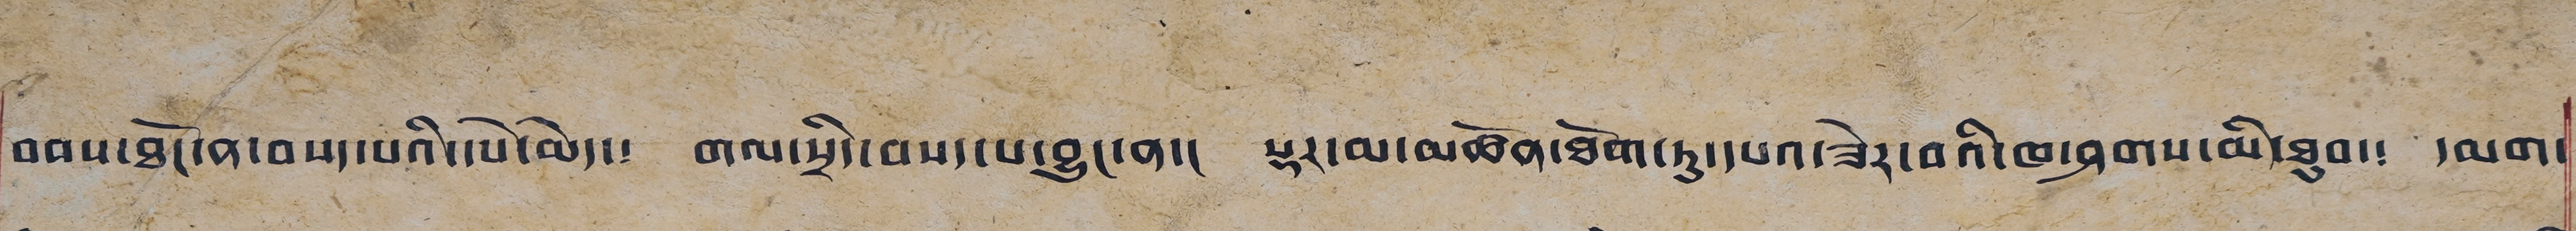བབས་ཐོང་ན་བསད་པའི་དཔེ་མེད་༴ གལ་སྲིད་བསད་པ་བྱུང་ན་༴ སྡར་མ་མཚོན་ཐོག་ཏུ་དཔའ་ཟེར་བའི་ཁ་ཤགས་མི་ཐུབ་༴ དམག་
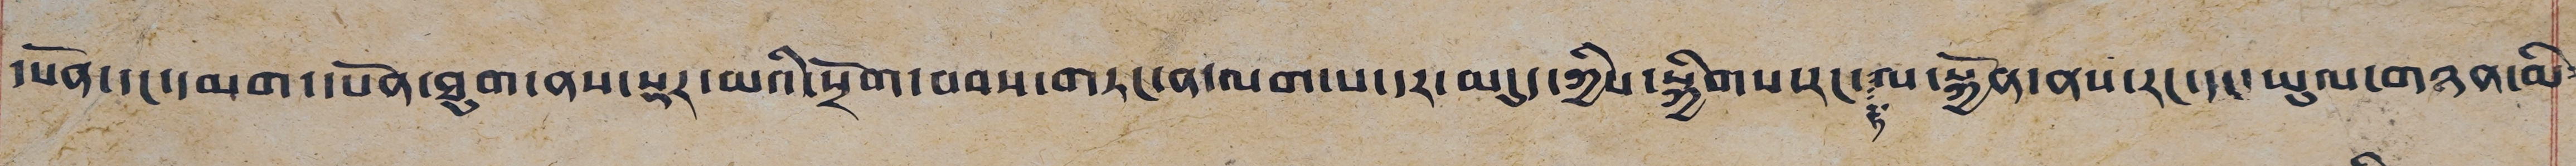དཔོན་དང་དམག་དཔོན་ཐུག་ནས་སྡར་མའི་སྲོག་བབས་གཏང་ན་ལག་པ་དར་མདུད་ཀྱིས་སྐྱིགས་རང་རྟ་ལ་སྐྱོན་ནས་རང་དང་ཡུལ་གཉན་མི༴
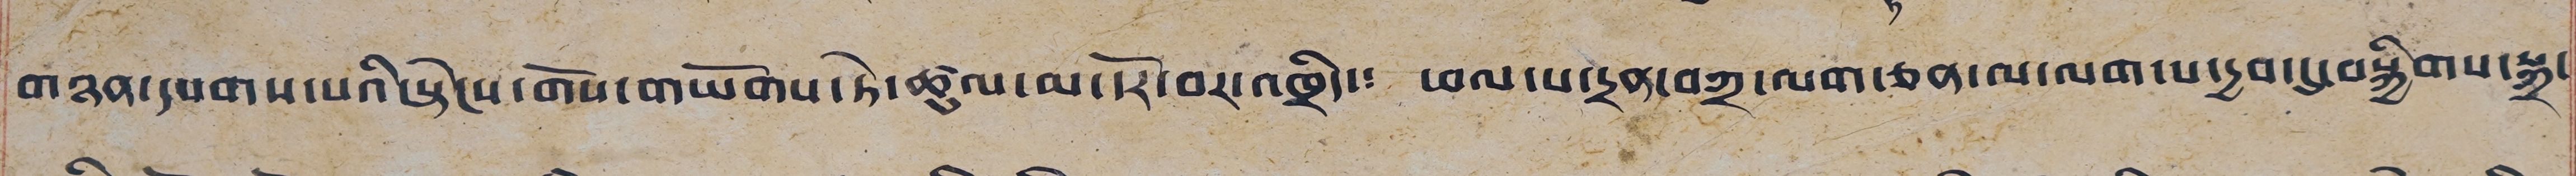གཉན་དཔགས་པའི་སྟེངས་གོས་གཡོགས་ཏེ་ཚུལ་མ་དོར་བར་འཁྲིད་༴ ཕལ་པ་དྲན་བཀྲ་ལག་ཅན་ལ་ལག་པ་དྱབ་དུ་བསྐྱིགས་སྐྲ་
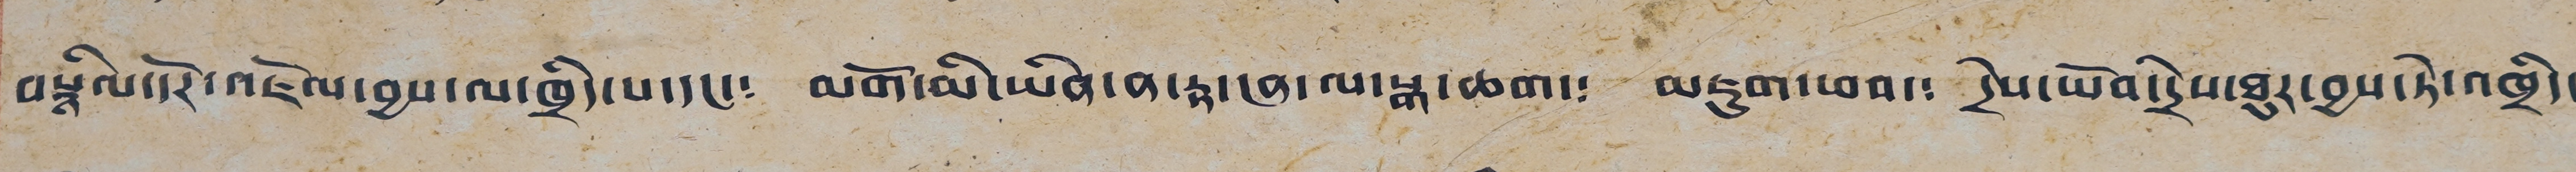བསྙིལ་དོར་འཛོལ་བྱས་ལ་ཁྲིད་པ་དང་༴ མགོ་མི་ཡིན་ན་རྟ་ངན་ལ་སྒ་ཆག་༴ མཇུག་ཕབ་༴ དྲེས་ཡོབ་དྲིས་ཐུར་བྱས་ཏེ་འཁྲིད་
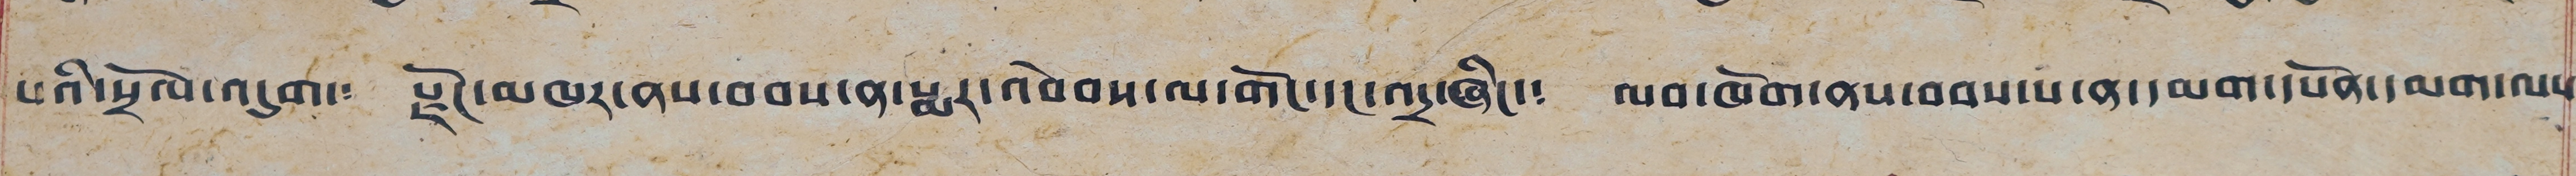པའི་སྲོལ་འདུག་༴ རྫོང་མཁར་ནས་བབས་ན་སྨར་འབེབས་ལ་གོང་དང་འདྲ་ཞིང་༴ ལབ་ཁོག་ནས་བབས་པ་ན་དམག་དཔོན་དམག་ལས༴
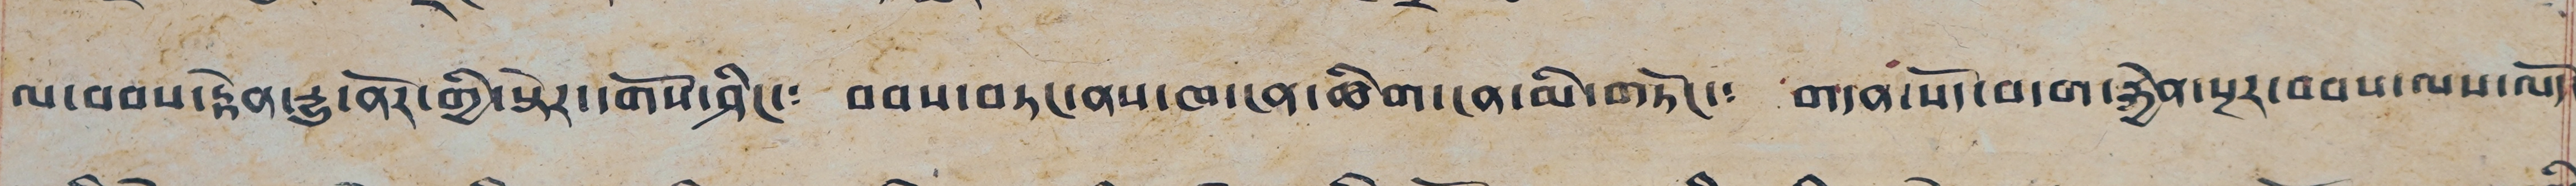ལ་བབས་རྟེན་རྒྱུ་ནོར་གྱི་སྟེར་དགོས་ཤིང་༴ བབས་བཏང་ནས་ཁ་ངན་ཚིག་ངན་མི་གཏོང་༴ གདན་སོད་བདག་རྐྱེན་སྔར་བབས་ལས་ལོད་
